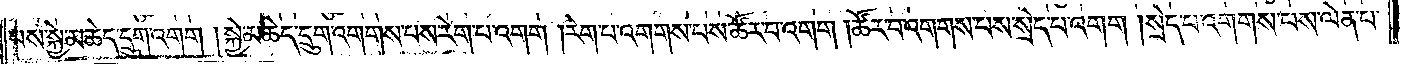པས་སྐྱེ་མཆེད་དྲུག་འགག །སྐྱེ་མཆེད་དྲུག་འགགས་པས་རེག་པ་འགག །རེག་པ་འགགས་པས་ཚོར་བ་འགག །ཚོར་བ་འགགས་པས་སྲེད་པ་འགག །སྲེད་པ་འགགས་པས་ལེན་པ་
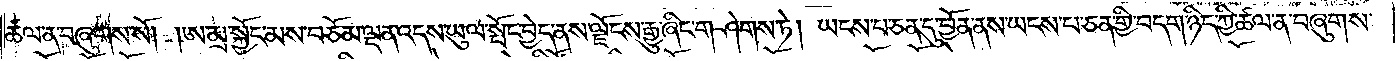ཚལ་ན་བཞུགས་སོ། །ཨ་མྲ་སྐྱོང་མས་བཅོམ་ལྡན་འདས་ཡུལ་སྤོང་བྱེད་ནས་ལྗོངས་རྒྱུ་ཞིང་གཤེགས་ཏེ། ཡངས་པ་ཅན་དུ་བྱོན་ནས་ཡངས་པ་ཅན་གྱི་བདག་ཉིད་ཀྱི་ཚལ་ན་བཞུགས་
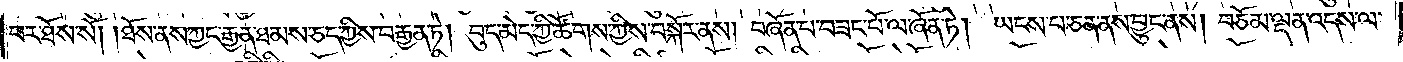པར་ཐོས་སོ། །ཐོས་ནས་ཀྱང་རྒྱན་ཐམས་ཅད་ཀྱིས་བརྒྱན་ཏེ། བུད་མེད་ཀྱི་ཚོགས་ཀྱིས་བསྐོར་ནས། བཞོན་པ་བཟང་པོ་ལ་ཞོན་ཏེ། ཡངས་པ་ཅན་ནས་བྱུང་ནས། བཅོམ་ལྡན་འདས་ལ་
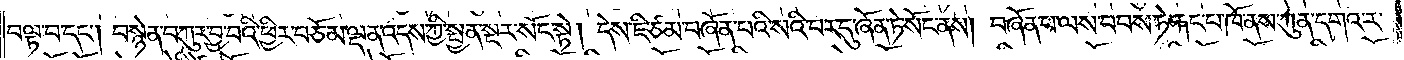བལྟ་བ་དང༌། བསྙེན་བཀུར་བྱ་བའི་ཕྱིར་བཅོམ་ལྡན་འདས་ཀྱི་སྤྱན་སྔར་སོང་སྟེ། དེས་ཇི་ཙམ་བཞོན་པའི་སའི་བར་དུ་ཞོན་ཏེ་སོང་ནས། བཞོན་པ་ལས་བབས་ཏེ་རྐང་པ་ཁོ་ནས་ཀུན་དགའ་ར་
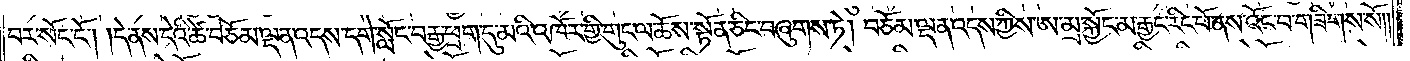བར་སོང་ངོ༌། །དེ་ནས་དེའི་ཚེ་བཅོམ་ལྡན་འདས་དགེ་སློང་བརྒྱ་ཕྲག་དུ་མའི་འཁོར་གྱི་གུང་ལ་ཆོས་སྟོན་ཅིང་བཞུགས་ཏེ། བཅོམ་ལྡན་འདས་ཀྱིས་ཨ་མྲ་སྐྱོང་མ་རྒྱང་རིང་པོ་ནས་འོང་བ་གཟིགས་སོ། །
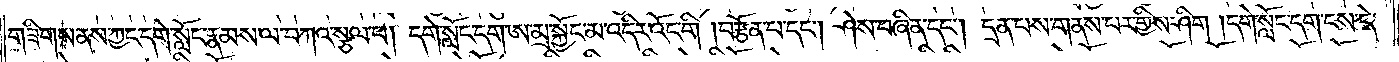གཟིགས་ནས་ཀྱང་དགེ་སློང་རྣམས་ལ་བཀའ་སྩལ་པ། དགེ་སློང་དག་ཨ་མྲ་སྐྱོང་མ་འདིར་འོང་གི །བརྩོན་པ་དང༌། ཤེས་བཞིན་དང༌། དྲན་པས་གནས་པར་གྱིས་ཤིག །དགེ་སློང་དག་ངས་དེ་
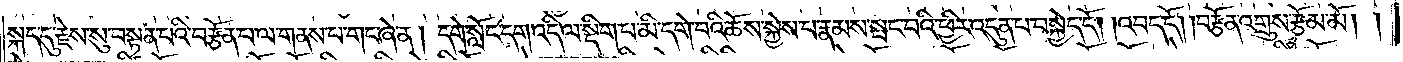སྐད་དུ་རྗེས་སུ་བསྟན་པའི་བརྩོན་པ་ལ་གནས་པ་གང་ཞེ་ན། དགེ་སློང་དག་འདི་ལ་སྡིག་པ་མི་དགེ་པའི་ཆོས་སྐྱེས་པ་རྣམས་སྤང་བའི་ཕྱིར་འདུན་པ་བསྐྱེད་དོ། །འབད་དོ། །བརྩོན་འགྲུས་རྩོམ་མོ། །
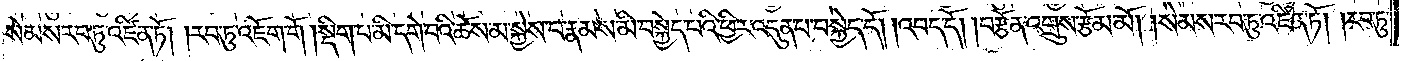སེམས་རབ་ཏུ་འཛིན་ཏོ། །རབ་ཏུ་འཇོག་གོ །སྡིག་པ་མི་དགེ་བའི་ཆོས་མ་སྐྱེས་པ་རྣམས་མི་བསྐྱེད་པའི་ཕྱིར་འདུན་པ་བསྐྱེད་དོ། །འབད་དོ། །བརྩོན་འགྲུས་རྩོམ་མོ། །སེམས་རབ་ཏུ་འཛིན་ཏོ། །རབ་ཏུ་
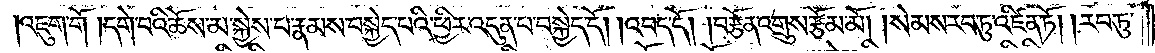འཇུག་གོ །དགེ་བའི་ཆོས་མ་སྐྱེས་པ་རྣམས་བསྐྱེད་པའི་ཕྱིར་འདུན་པ་བསྐྱེད་དོ། །འབད་དོ། །བརྩོན་འགྲུས་རྩོམ་མོ། །སེམས་རབ་ཏུ་འཛིན་ཏོ། །རབ་ཏུ་
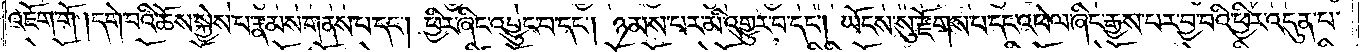འཇོག་གོ །དགེ་བའི་ཆོས་སྐྱེས་པ་རྣམས་གནས་པ་དང༌། ཕྱིར་ཞིང་འབྱུང་བ་དང༌། ཉམས་པར་མི་འགྱུར་བ་དང༌། ཡོངས་སུ་རྫོགས་པ་དང་འཕེལ་ཞིང་རྒྱས་པར་བྱ་བའི་ཕྱིར་འདུན་པ་
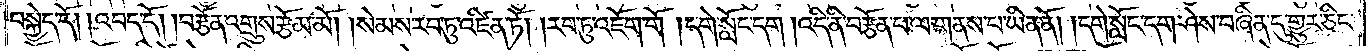བསྐྱེད་དོ། །འབད་དོ། །བརྩོན་འགྲུས་རྩོམ་མོ། །སེམས་རབ་ཏུ་འཛིན་ཏོ། །རབ་ཏུ་འཇོག་གོ །དགེ་སློང་དག །འདི་ནི་བརྩོན་པ་ལ་གནས་པ་ཡིན་ནོ། །དགེ་སློང་དག་ཤེས་བཞིན་དུ་གྱུར་ཅིང་
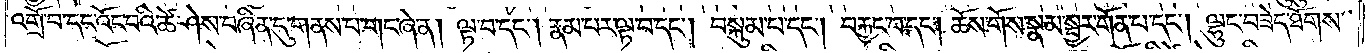འགྲོ་བ་དང་འོང་བའི་ཚེ་ཤེས་བཞིན་དུ་གནས་པ་གང་ཞེ་ན། ལྟ་བ་དང༌། རྣམ་པར་ལྟ་བ་དང༌། བསྐུམ་པ་དང༌། བརྐྱང་བ་དང༌། ཆོས་གོས་སྣམ་སྦྱར་གོན་པ་དང༌། ལྟུང་བཟེད་ཐོགས་
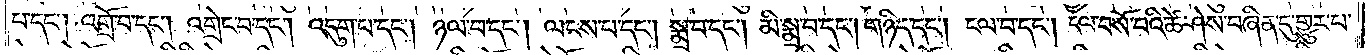པ་དང༌། འགྲོ་བ་དང༌། འགྲེང་པ་དང༌། འདུག་པ་དང༌། ཉལ་བ་དང༌། ལངས་པ་དང༌། སྨྲ་བ་དང༌། མི་སྨྲ་བ་དང༌། གཉིད་དང༌། ངལ་བ་དང༌། ངལ་བསོ་བའི་ཚེ་ཤེས་བཞིན་དུ་གྱུར་པ་
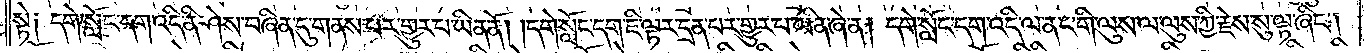སྟེ༑ དགེ་སློང་དག་འདི་ནི་ཤེས་བཞིན་དུ་གནས་པར་གྱུར་པ་ཡིན་ནོ། །དགེ་སློང་དག་ཇི་ལྟར་དྲན་པར་གྱུར་པ་ཡིན་ཞེ་ན། དགེ་སློང་དག་འདི་ལ་ནང་གི་ལུས་ལ་ལུས་ཀྱི་རྗེས་སུ་ལྟ་ཞིང༌།
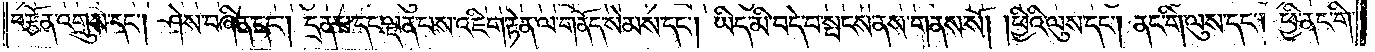བརྩོན་འགྲུས་དང༌། ཤེས་བཞིན་དང༌། དྲན་པ་དང་ལྡན་པས་འཇིག་རྟེན་ལ་གནོད་སེམས་དང༌། ཡིད་མི་བདེ་པ་སྤངས་ནས་གནས་སོ། །ཕྱིའི་ལུས་དང༌། ནང་གི་ལུས་དང༌། ཕྱི་ནང་གི་
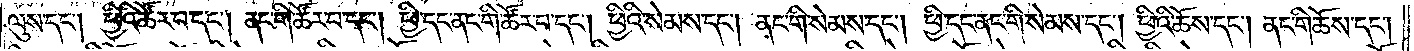ལུས་དང༌། ཕྱིའི་ཚོར་བ་དང༌། ནང་གི་ཚོར་བ་དང༌། ཕྱི་དང་ནང་གི་ཚོར་བ་དང༌། ཕྱིའི་སེམས་དང༌། ནང་གི་སེམས་དང༌། ཕྱི་དང་ནང་གི་སེམས་དང༌། ཕྱིའི་ཆོས་དང༌། ནང་གི་ཆོས་དང༌།
